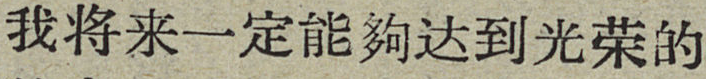我将来一定能夠达到光荣的
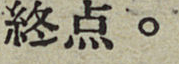終点。
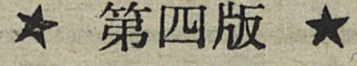★ 第四版 ★
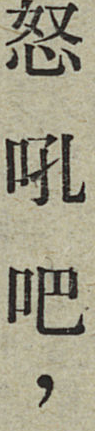怒吼吧，
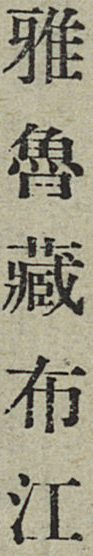雅魯藏布江
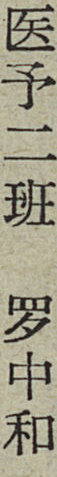医予二班 罗中和
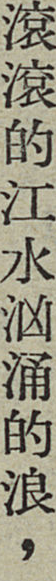滾滾的江水汹涌的浪，
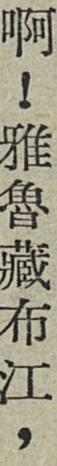啊！雅魯藏布江，
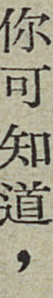你可知道，
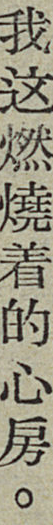我这燃燒着的心房。
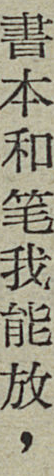書本和笔我能放，
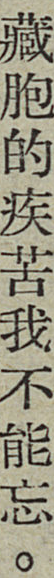藏胞的疾苦我不能忘。
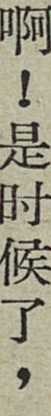啊！是时候了，
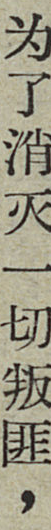为了消灭一切叛匪，
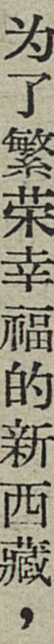为了繁荣幸福的新西藏，
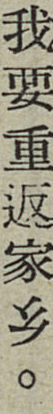我要重返家乡。
